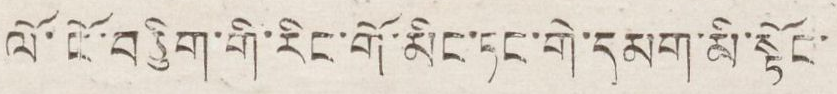ལོ་ངོ་བཅིུག་གི་རིང་གོ་མིང་ཏང་གི་དམག་མི་སྟོང་
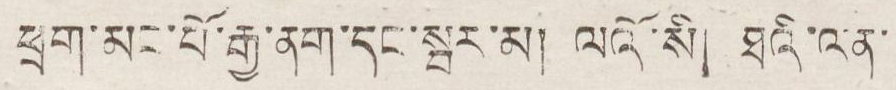ཕྲག་མང་པོ་རྒྱ་ནག་དང་སྦར་མ། ལའོ་སི། ཐའི་ལན་
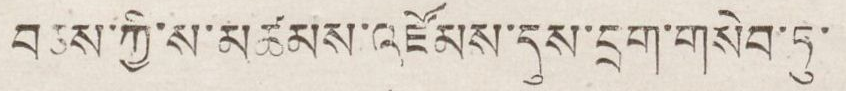བཅས་ཀྱི་ས་མཚམས་འཛོམས་དུས་དྲག་གསེབ་ཏུ་
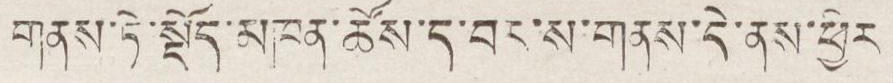གནས་ཏེ་སྡོད་མཁན་ཚོས་ད་བར་ས་གནས་དེ་ནས་ཕྱིར
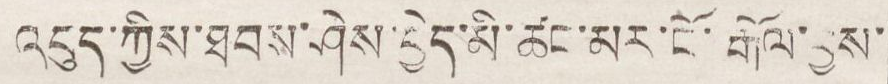འབུད་ཀྱིས་ཐབས་ཤེས་བྱེད་མི་ཚང་མར་ངོ་རྒོལ་བྱས་
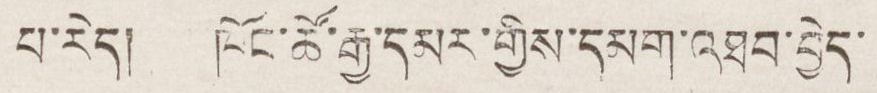པ་རེད། ཁོང་ཚོ་རྒྱ་དམར་གྱིས་དམག་འཐབ་བྱེད་
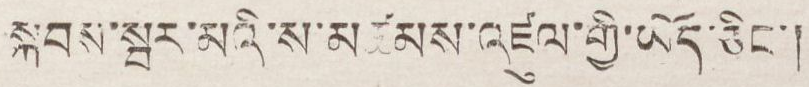སྐབས་སྦར་མའི་ས་མཚམས་འཛུལ་གྱི་ཡོད་ཅིང་།
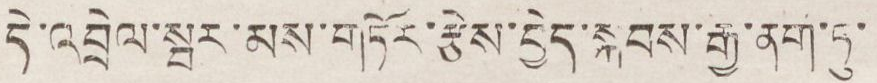ཏེ་འབྲེལ་སྦར་མས་གཏོར་རྩེས་བྱེད་སྐབས་རྒྱ་ནག་ཏུ་
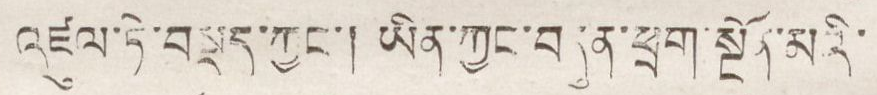འཛུལ་ཏེ་བསྡད་ཀྱང་། ཡིན་ཀྱང་བདུན་ཕྲག་སྔོན་མའི་
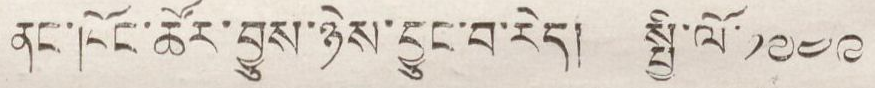ནང་ཁོང་ཚོར་བྱུས་ཉེས་བྱུང་བ་རེད། སྤྱི་ལོ་ ༡༩༤༩
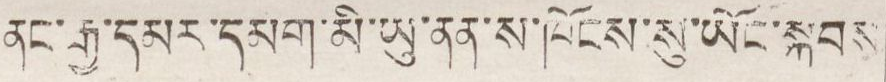ནང་རྒྱ་དམར་དམག་མི་ཡུ་ནན་ས་ཁོངས་སུ་ཡོང་སྐབས
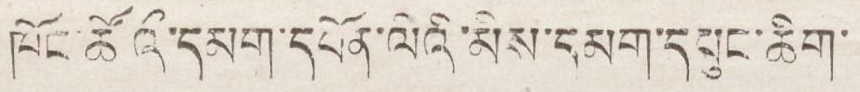ཁོང་ཚོའི་དམག་དཔོན་ལིའི་མིས་དམག་དཔུང་ཆིག་
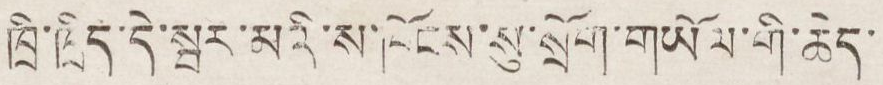ཁྲི་ཁྲིད་དེ་སྦར་མའི་ས་ཁོངས་སུ་སྲོག་གཡོལ་གི་ཆེད་
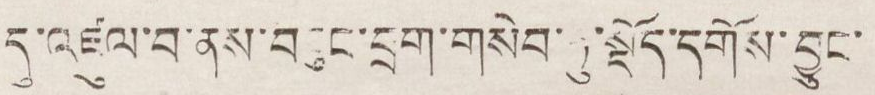དུ་འཛུལ་བ་ནས་བཟུང་དྲག་གསེབ་ཏུ་སྡོད་དགོས་བྱུང་
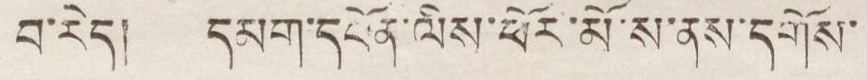བ་རེད། དམག་དཔོན་ལིས་ཕོར་མོ་ས་ནས་དགོས་
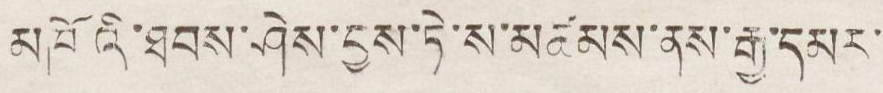མཁོའི་ཐབས་ཤེས་བྱས་ཏེ་ས་མཚམས་ནས་རྒྱ་དམར་
